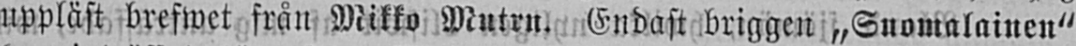uppläst brefwet från Mikko Mutru. Endast briggen „Suomalainen"
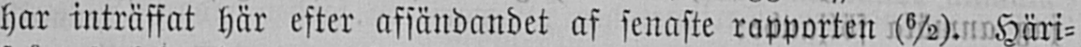har inträffat här efter afsändandet af senaste rapporten (6/2). Häri-
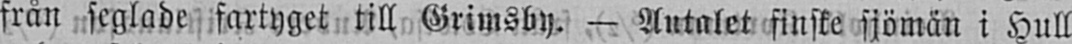från seglade fartyget till Grimsby. — Antalet finske sjömän i Hull
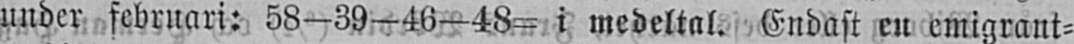under februari: 58-39-46—48- i medeltal. Endast en emigrant-
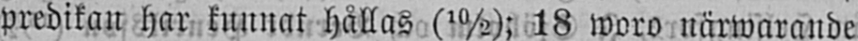predikan har kunnat hållas (10/2); 18 woro närwarande
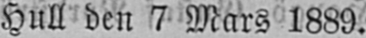Hull den 7 Mars 1889.
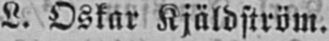L. Oskar Kjäldström.
